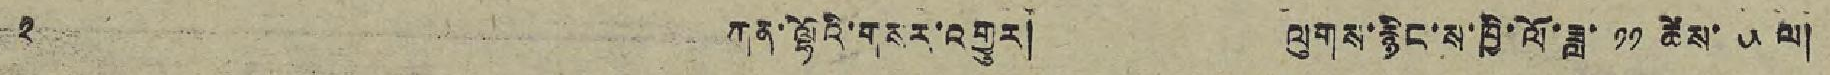༢ ཀན་ལྷོའི་གསར་འགྱུར། ལུགས་རྙིང་ས་ཁྱི་ལོ་ཟླ་ ༡༡ ཚེས་ ༥ ལ།
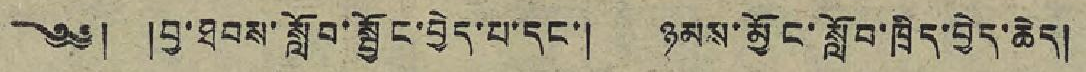༄༅། །བྱ་ཐབས་སློབ་སྦྱོང་བྱེད་པ་དང་། ཉམས་མྱོང་སློབ་ཁྲིད་བྱེད་ཆེད།
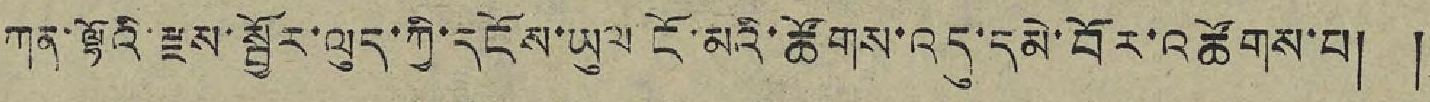ཀན་ལྷོའི་རྫས་སྦྱོར་ལུད་ཀྱི་དངོས་ཡུལ ངོ་མའི་ཚོགས་འདུ་དམེ་བོར་འཚོགས་པ། །
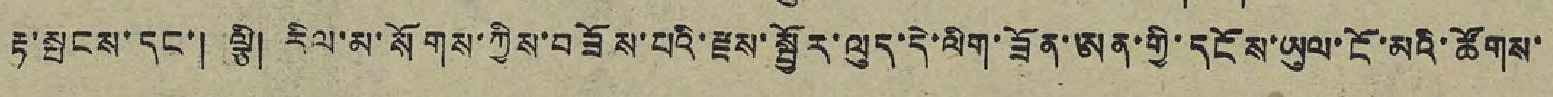རྟ་སྤངས་དང་། ལྕི། རིལ་མ་སོགས་ཀྱིས་བཟོས་པའི་རྫས་སྦྱོར་ལུད་དེ་ལིག་ཟོན་ཨན་གྱི་དངོས་ཡུལ་ངོ་མའི་ཚོགས་
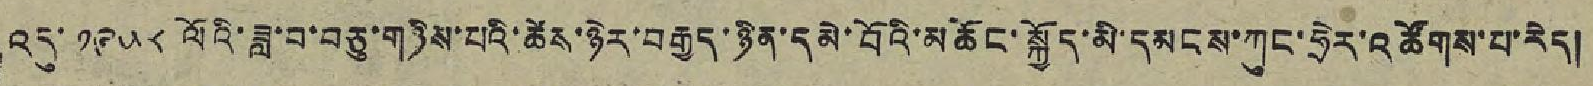འདུ་ ༡༩༥༨ ལོའི་ཟླ་བ་བཅུ་གཉིས་པའི་ཚེས་ཉེར་བརྒྱད་ཉིན་དམེ་བོའི་མཆོང་སྐྱོད་མི་དམངས་ཀུང་ཧྲེར་འཚོགས་པ་རེད།
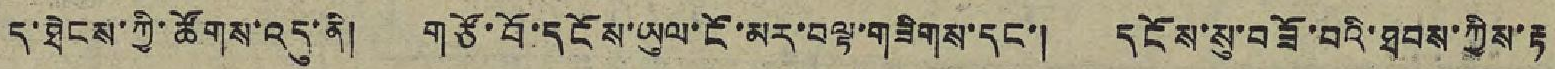ད་ཐེངས་ཀྱི་ཚོགས་འདུ་ནི། གཙོ་བོ་དངོས་ཡུལ་ངོ་མར་བལྟ་གཟིགས་དང་། དངོས་སུ་བཟོ་བའི་ཐབས་ཀྱིས་རྟ
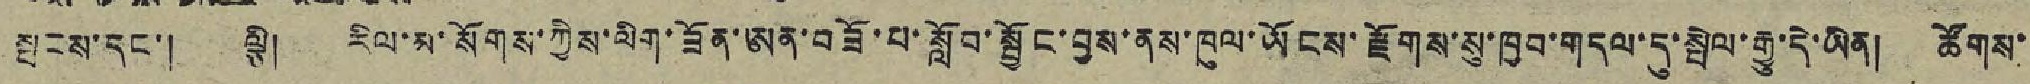སྦངས་དང་། ལྕི། རིལ་མ་སོགས་ཀྱིས་ལིག་ཟོན་ཨན་བཟོ་པ་སློབ་སྦྱོང་བྱས་ནས་ཁུལ་ཡོངས་རྫོགས་སུ་ཁྱབ་གདལ་དུ་སྤེལ་རྒྱུ་དེ་ཡིན། ཚོགས་
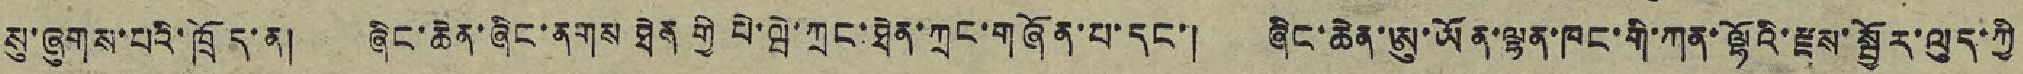སུ་ཞུགས་པའི་ཁྲོད་ན། ཞིང་ཆེན་ཞིང་ནགས ཐེན གྱི པེ་ཝེ་ཀྲང་ཐེན་ཀྲང་གཞོན་པ་དང་། ཞིང་ཆེན་ཨུ་ཡོན་ལྷན་ཁང་གི་ཀན་ལྷོའི་རྫས་སྦྱོར་ལུད་ཀྱི
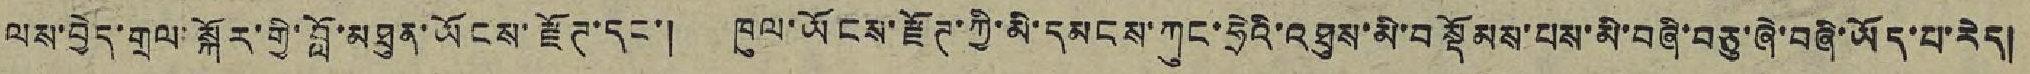ལས་བྱེད་གྲལ་སྐོར་གྱི་བློ་མཐུན་ཡོངས་རྫོཊ་དང་། ཁུལ་ཡོངས་རྫོཊ་ཀྱི་མི་དམངས་ཀུང་ཧྲིའི་འཐུས་མི་བསྡོམས་པས་མི་བཞི་བཅུ་ཞེ་བཞི་ཡོད་པ་རེད།
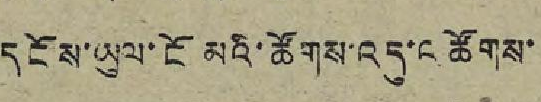དངོས་ཡུལ་ངོ་མའི་ཚོགས་འདུ་འཚོགས་
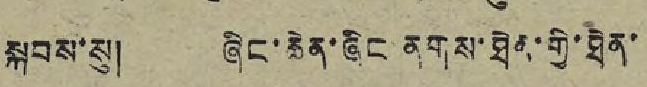སྐབས་སུ། ཞིང་ཆེན་ཞིང ནགས་ཐེན་གྱི་ཐེན་
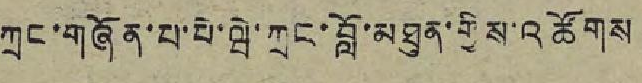ཀྲང་གཞོན་པ་པེ་ཝེ་ཀྲང་བློ་མཐུན་གྱིས་འཚོགས
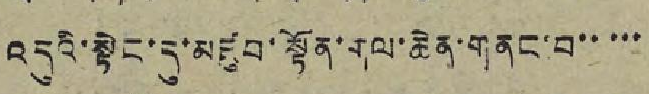འདུའི་སྟེང་དུ་མཛུབ་སྟོན་གལ་ཆེན་གནང་བ་་་་་
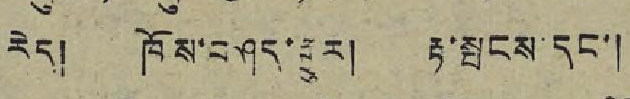རེད། ཁོས་བཤད་གྱུར། རྟ་སྤངས་དང་།
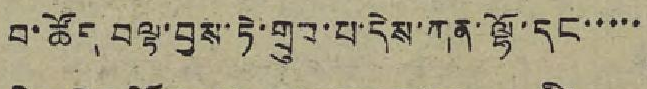བ་ཚོད་བལྟ་བྱས་ཏེ་གྲུབ་པ་དེས་ཀན་ལྷོ་དང་་་་་
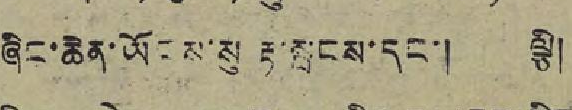ཞིང་ཆེན་ཡོངས་སུ རྟ་སྦངས་དང་། ལྕི།
